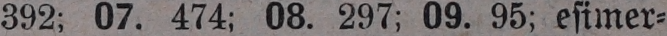392; 07. 474; 08. 297; 09. 95; esimer-
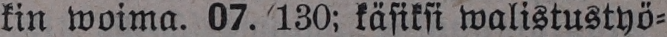kin woima. 07. 130; käsiksi walistustyö-
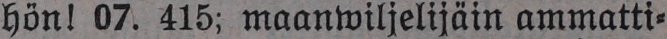hön! 07. 415; maanwiljelijäin ammatti-
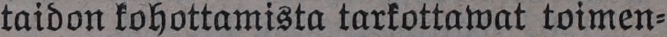taidon kohottamista tarkottawat toimen-
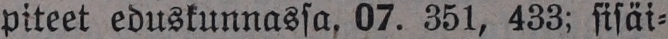piteet eduskunnassa, 07. 351, 433; sisäi-
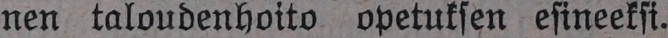nen taloudenhoito opetuksen esineeksi.
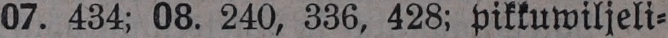07. 434; 08. 240, 336, 428: pikkuwiljeli-
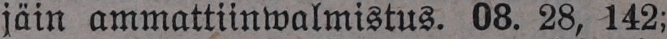jäin ammattiinwalmistus. 08. 28, 142;
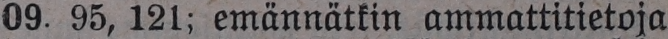09. 95, 121; emännätkin ammattitietoja
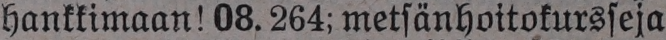hankkimaan! 08. 264; metsänhoitokursseja
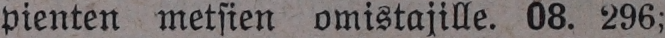pienten metsien omistajille. 08. 296;
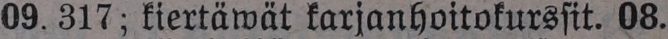09. 317; kiertäwät karjanhoitokurssit. 08.
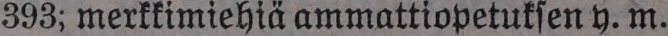393; merkkimiehiä ammattiopetuksen y. m.
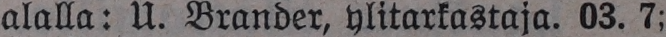alalla: U. Brander, ylitarkastaja. 03. 7;
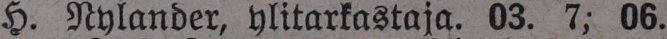H. Nylander, ylitarkastaja. 03. 7; 06.
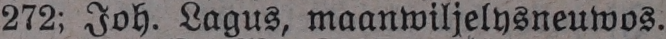272; Joh. Lagus, maanwiljelysneuwos.
